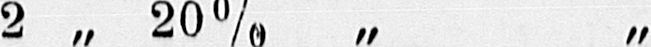2 „ 20% „ „
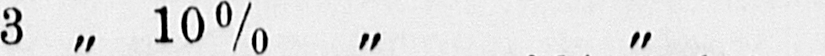3 „ 10% „ „
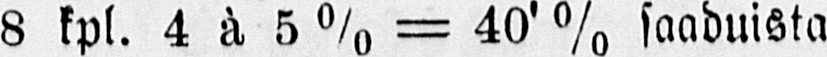8 kpl. 4 ä. 5% — 40'% saaduista
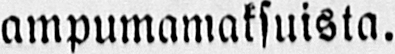ampumamaksuista.
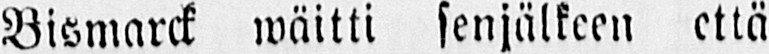Bismarck wäitti senjälkeen että
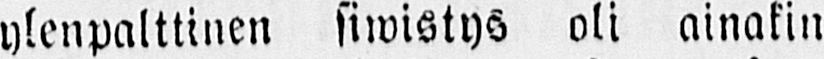ylenpalttinen siwistys oli ainakin
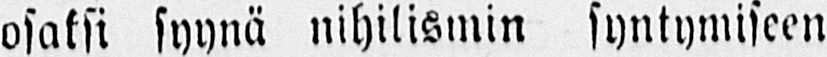osaksi syynä nihilismin syntymiseen
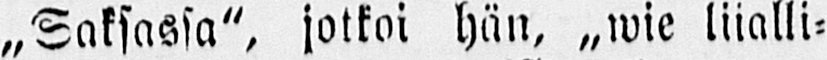„Saksassa", jatkoi hän, „wie liialli-
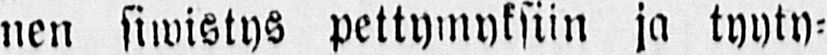nen siwistys pettymyksiin ja tyyty-
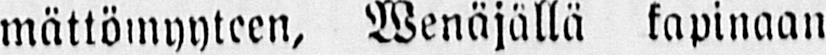mättömyyteen, Wenäjallä kapinaan
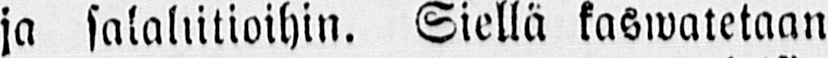ja salaliitioihin. Siellä kaswatetaan
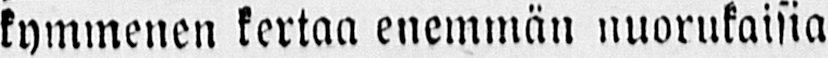kymmenen kertaa enemmän nuorukaisia
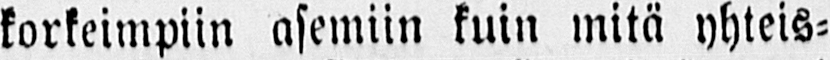korkeimpiin asemiin kuin mitä yhteis-
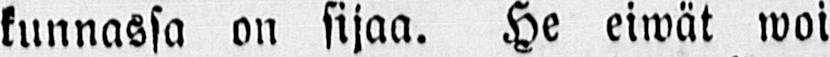kunnassa on sijaa. He eiwät woi
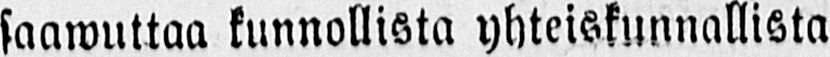saawuttaa kunnollista yhteiskunnallista
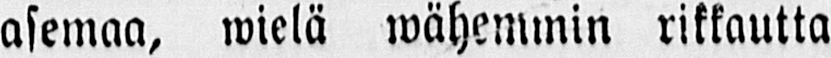asemaa, wielä wähemmin rikkautta
